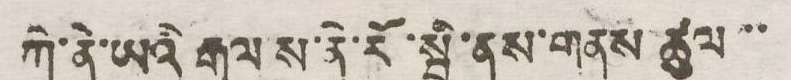ཀེ་ནེ་ཡའི རྒྱལ་ས་ནེ་རོ་སྦི་ནས་གནས་ཚུལ་་
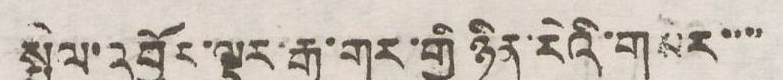སྤེལ་འབྱོར་ལྟར་རྒྱ་གར་གྱི ཉིན་རེའི་གསར་་་་
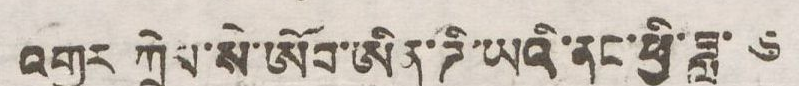འགྱུར ཀྲེམ་སེ་ཨོབ་ཨིན་ཌི་ཡའི་ནང་ཕྱི་ཟླ ༦
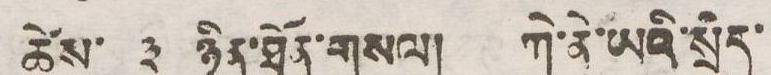ཚེས་ ༣ ཉིན་ཐོན་གསལ། ཀེ་ནེ་ཡའི་སྲིད་
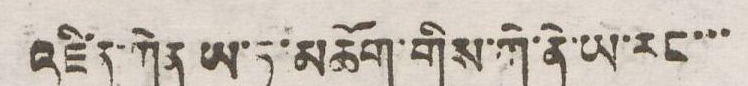འཛིན་ཀེན ཡ་ཏ་མཆོག་གིས་ཀེ་ནེ་ཡ་རང་་་
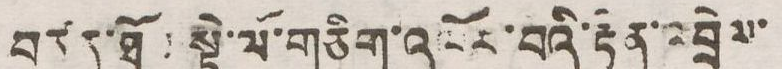བཙད་ཐོ  སྟེ་ལོ་གཅིག་འཁོར་བའི་རྟེན་འབྲེལ་
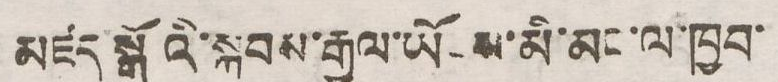མཛད་སྒོའི་སྐབས་རྒྱལ་ཡོངས་མི་མང་ལ་ཁྱབ་
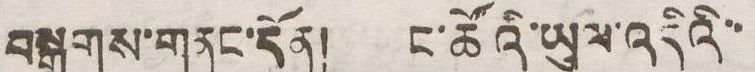བསྒྲགས་གནང་དོན། ང་ཚོའི་ཡུལ་འདིའི་་
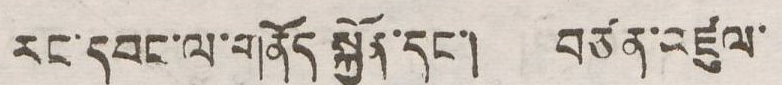རང་དབང་ལ་གནོད སྐྱོན་དང་། བཙན་འཛུལ་
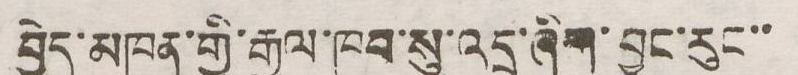བྱེད་མཁན་གྱི་རྒྱལ་ཁབ་སུ་འདྲ་ཞིག་བྱུང་རུང་་
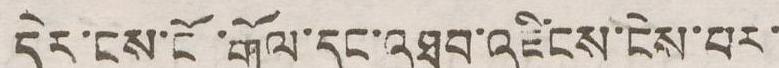དེར་ངས་ངོ་རྒོད་དང་འཐབ་འཛིངས་ངེས་བར་
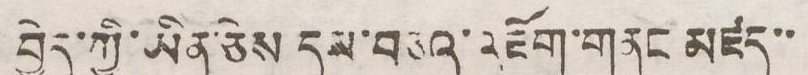བྱེད་ཀྱི་ཡིན་ཅེས དམ་བཅའ་འཇོག་གནང མཛད་་
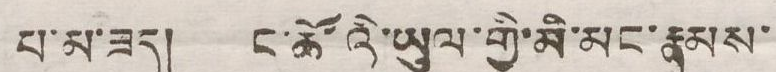པ་མ་ཟད། ང་ཚོའི་ཡུལ་གྱི་མི་མང་རྣམས་
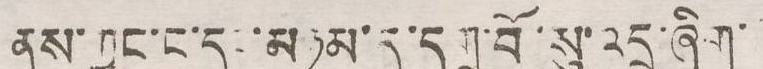ནས་ཀྱང་ང་དང་མཉམ་དུ་དགྲ་བོ་སུ་འདྲ་ཞིག་
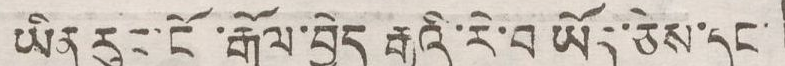ཡིན རུང་ངོ་རྒོལ་བྱེད རྒྱུའི་རེ་བ ཡོད་ཅེས་དང་
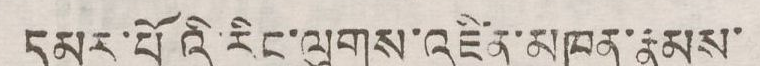དམར་པོའི་རིང་ལུགས་འཛིན་མཁན་རྣམས་
